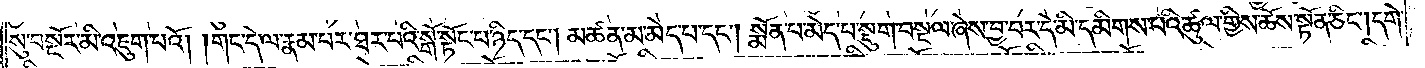སུ་བསྔོར་མི་འཇུག་པའོ། །གང་དེ་ལ་རྣམ་པར་ཐར་པའི་སྒོ་སྟོང་པ་ཉིད་དང༌། མཚན་མ་མེད་པ་དང༌། སྨོན་པ་མེད་པ་སྡུག་བསྔལ་ཞེས་བྱ་བར་དེ་མི་དམིགས་པའི་ཚུལ་གྱིས་ཆོས་སྟོན་ཅིང༌། དགེ་
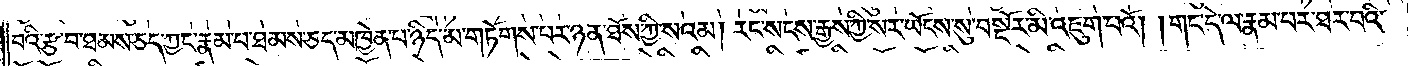བའི་རྩ་བ་ཐམས་ཅད་ཀྱང་རྣམ་པ་ཐམས་ཅད་མཁྱེན་པ་ཉིད་མ་གཏོགས་པར་ཉན་ཐོས་ཀྱི་སའམ། རང་སངས་རྒྱས་ཀྱི་སར་ཡོངས་སུ་བསྔོར་མི་འཇུག་པའོ། །གང་དེ་ལ་རྣམ་པར་ཐར་པའི་
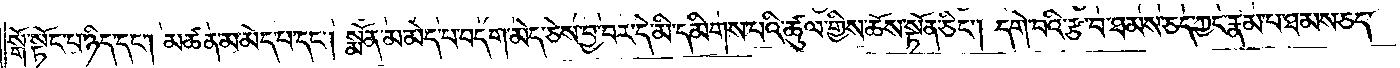སྒོ་སྟོང་པ་ཉིད་དང༌། མཚན་མ་མེད་པ་དང༌། སྨོན་པ་མེད་པ་བདག་མེད་ཅེས་བྱ་བར་དེ་མི་དམིགས་པའི་ཚུལ་གྱིས་ཆོས་སྟོན་ཅིང༌། དགེ་བའི་རྩ་བ་ཐམས་ཅད་ཀྱང་རྣམ་པ་ཐམས་ཅད་
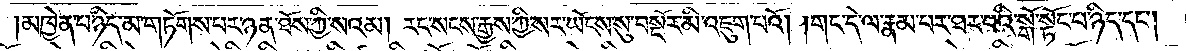མཁྱེན་པ་ཉིད་མ་གཏོགས་པར་ཉན་ཐོས་ཀྱི་སའམ། རང་སངས་རྒྱས་ཀྱི་སར་ཡོངས་སུ་བསྔོར་མི་འཇུག་པའོ། །གང་དེ་ལ་རྣམ་པར་ཐར་པའི་སྒོ་སྟོང་པ་ཉིད་དང༌།
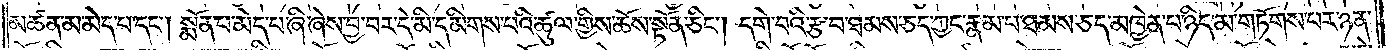མཚན་མ་མེད་པ་དང༌། སྨོན་པ་མེད་པ་ཞི་ཞེས་བྱ་བར་དེ་མི་དམིགས་པའི་ཚུལ་གྱིས་ཆོས་སྟོན་ཅིང༌། དགེ་བའི་རྩ་བ་ཐམས་ཅད་ཀྱང་རྣམ་པ་ཐམས་ཅད་མཁྱེན་པ་ཉིད་མ་གཏོགས་པར་ཉན་
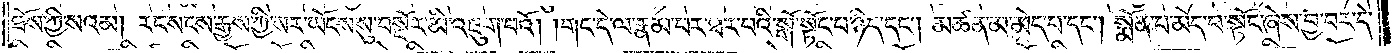ཐོས་ཀྱི་སའམ། རང་སངས་རྒྱས་ཀྱི་སར་ཡོངས་སུ་བསྔོར་མི་འཇུག་པའོ། །གང་དེ་ལ་རྣམ་པར་ཐར་པའི་སྒོ་སྟོང་པ་ཉིད་དང༌། མཚན་མ་མེད་པ་དང༌། སྨོན་པ་མེད་པ་སྟོང་ཞེས་བྱ་བར་དེ་
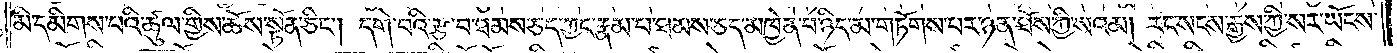མི་དམིགས་པའི་ཚུལ་གྱིས་ཆོས་སྟོན་ཅིང༌། དགེ་བའི་རྩ་བ་ཐམས་ཅད་ཀྱང་རྣམ་པ་ཐམས་ཅད་མཁྱེན་པ་ཉིད་མ་གཏོགས་པར་ཉན་ཐོས་ཀྱི་སའམ། རང་སངས་རྒྱས་ཀྱི་སར་ཡོངས་
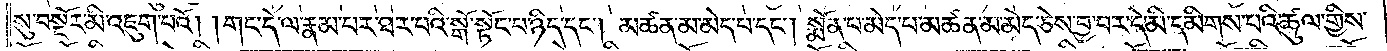སུ་བསྔོར་མི་འཇུག་པའོ། །གང་དེ་ལ་རྣམ་པར་ཐར་པའི་སྒོ་སྟོང་པ་ཉིད་དང༌། མཚན་མ་མེད་པ་དང༌། སྨོན་པ་མེད་པ་མཚན་མ་མེད་ཅེས་བྱ་བར་དེ་མི་དམིགས་པའི་ཚུལ་གྱིས་
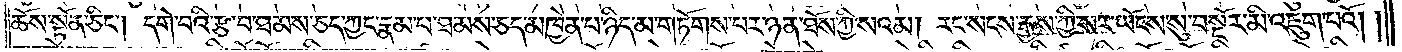ཆོས་སྟོན་ཅིང༌། དགེ་བའི་རྩ་བ་ཐམས་ཅད་ཀྱང་རྣམ་པ་ཐམས་ཅད་མཁྱེན་པ་ཉིད་མ་གཏོགས་པར་ཉན་ཐོས་ཀྱི་སའམ། རང་སངས་རྒྱས་ཀྱི་སར་ཡོངས་སུ་བསྔོར་མི་འཇུག་པའོ། །
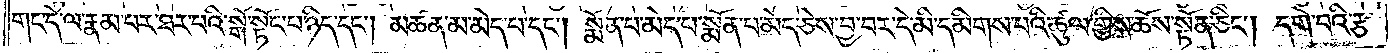གང་དེ་ལ་རྣམ་པར་ཐར་པའི་སྒོ་སྟོང་པ་ཉིད་དང༌། མཚན་མ་མེད་པ་དང༌། སྨོན་པ་མེད་པ་སྨོན་པ་མེད་ཅེས་བྱ་བར་དེ་མི་དམིགས་པའི་ཚུལ་གྱིས་ཆོས་སྟོན་ཅིང༌། དགེ་བའི་རྩ་
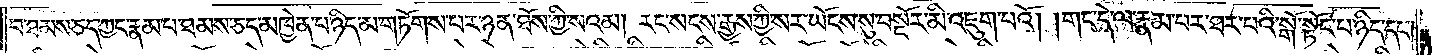བ་ཐམས་ཅད་ཀྱང་རྣམ་པ་ཐམས་ཅད་མཁྱེན་པ་ཉིད་མ་གཏོགས་པར་ཉན་ཐོས་ཀྱི་སའམ། རང་སངས་རྒྱས་ཀྱི་སར་ཡོངས་སུ་བསྔོར་མི་འཇུག་པའོ། །གང་དེ་ལ་རྣམ་པར་ཐར་པའི་སྒོ་སྟོང་པ་ཉིད་དང༌།
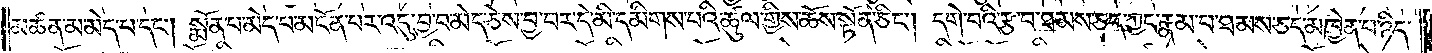མཚན་མ་མེད་པ་དང༌། སྨོན་པ་མེད་པ་མངོན་པར་འདུ་བྱ་བ་མེད་ཅེས་བྱ་བར་དེ་མི་དམིགས་པའི་ཚུལ་གྱིས་ཆོས་སྟོན་ཅིང༌། དགེ་བའི་རྩ་བ་ཐམས་ཅད་ཀྱང་རྣམ་པ་ཐམས་ཅད་མཁྱེན་པ་ཉིད་
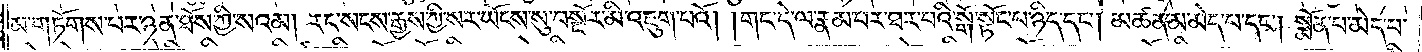མ་གཏོགས་པར་ཉན་ཐོས་ཀྱི་སའམ། རང་སངས་རྒྱས་ཀྱི་སར་ཡོངས་སུ་བསྔོར་མི་འཇུག་པའོ། །གང་དེ་ལ་རྣམ་པར་ཐར་པའི་སྒོ་སྟོང་པ་ཉིད་དང༌། མཚན་མ་མེད་པ་དང༌། སྨོན་པ་མེད་པ་
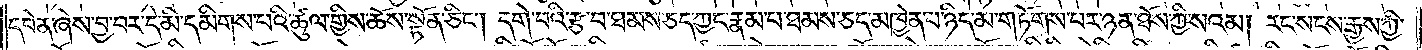དབེན་ཞེས་བྱ་བར་དེ་མི་དམིགས་པའི་ཚུལ་གྱིས་ཆོས་སྟོན་ཅིང༌། དགེ་བའི་རྩ་བ་ཐམས་ཅད་ཀྱང་རྣམ་པ་ཐམས་ཅད་མཁྱེན་པ་ཉིད་མ་གཏོགས་པར་ཉན་ཐོས་ཀྱི་སའམ། རང་སངས་རྒྱས་ཀྱི་
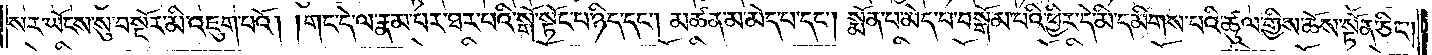སར་ཡོངས་སུ་བསྔོར་མི་འཇུག་པའོ། །གང་དེ་ལ་རྣམ་པར་ཐར་པའི་སྒོ་སྟོང་པ་ཉིད་དང༌། མཚན་མ་མེད་པ་དང༌། སྨོན་པ་མེད་པ་བསྒོམ་པའི་ཕྱིར་དེ་མི་དམིགས་པའི་ཚུལ་གྱིས་ཆོས་སྟོན་ཅིང༌།
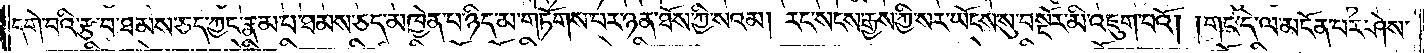དགེ་བའི་རྩ་བ་ཐམས་ཅད་ཀྱང་རྣམ་པ་ཐམས་ཅད་མཁྱེན་པ་ཉིད་མ་གཏོགས་པར་ཉན་ཐོས་ཀྱི་སའམ། རང་སངས་རྒྱས་ཀྱི་སར་ཡོངས་སུ་བསྔོར་མི་འཇུག་པའོ། །གང་དེ་ལ་མངོན་པར་ཤེས་
